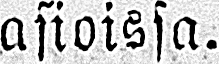asioissa.
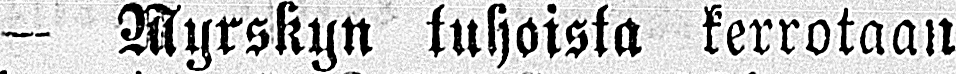— Myrskyn tuhoista kerrotaan
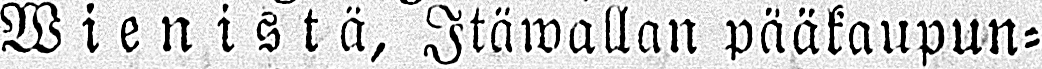Wienistä, Itäwallan pääkaupun-
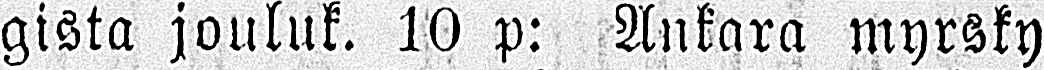gista jouluk. 10 p: Ankara myrsky
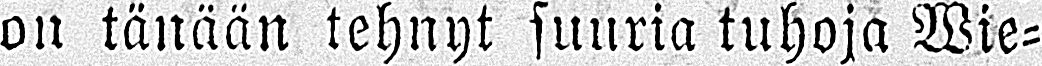on tänään tehnyt suuria tuhoja Wie-
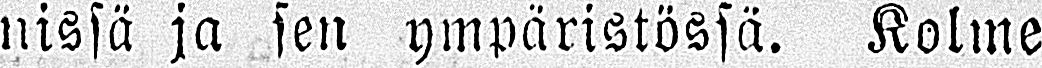nissä ja sen ympäristössä. Kolme
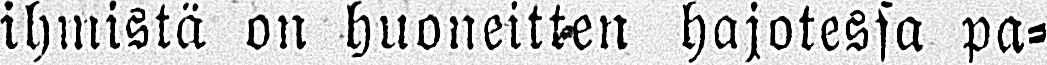ihmistä on huoneitten hajotessa pa-
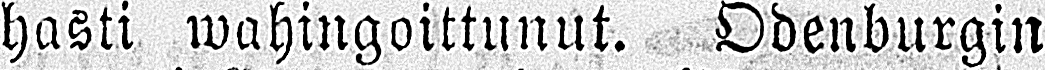hasti wahingoittunut. Odenburgin
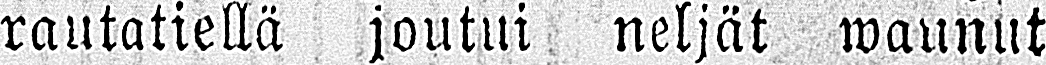rautatiellä joutui neljät waunut
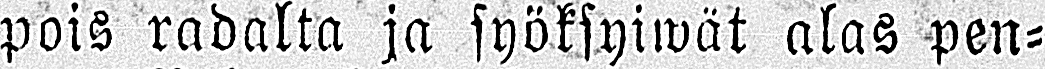pois radalta ja syöksyiwät alas pen-
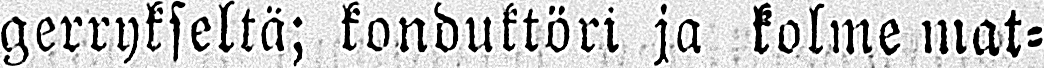gerrykseltä; konduktöri ja kolme mat-
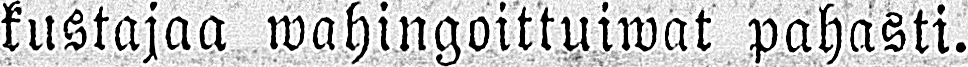kustajaa wahingoittuiwat pahasti.
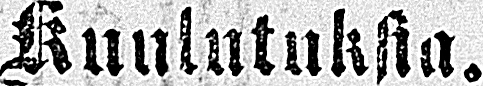Kuulutuksia.
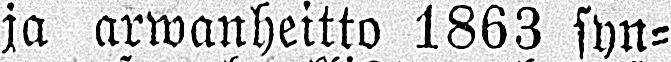Kutsunta ja arwanheitto 1863 syn-
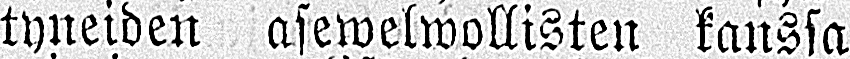tyneiden asewelwollisten kanssa
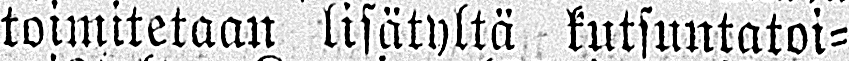toimitetaan lisätyltä kutsuntatoi-
